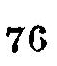76
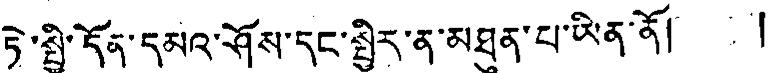ཏེ་སྤྱི་དོན་དམའ་ཤོས་དང་སྤྱིར་ན་མཐུན་པ་ཡིན་ནོ། །
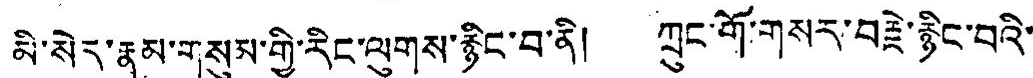མི་སེད་རྣམ་གསུམ་གྱི་རིང་ལུགས་རྙིང་བ་ནི། ཀྲུང་གོ་གསར་བརྗེ་རྙིང་བའི་
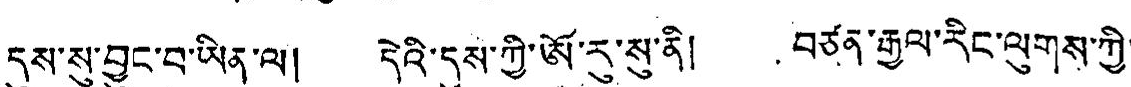དུས་སུ་བྱུང་བ་ཡིན་ལ། དེའི་དུས་ཀྱི་ཨོ་རུ་སུ་ནི། བཙན་རྒྱལ་རིང་ལུགས་ཀྱི་
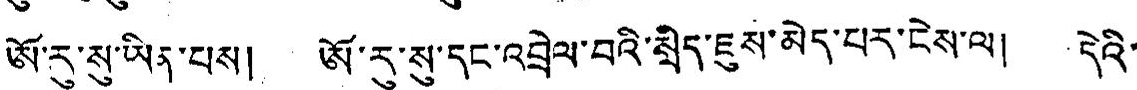ཨོ་རུ་སུ་ཡིན་པས། ཨོ་རུ་སུ་དང་འབྲེལ་བའི་སྲིད་ཇུས་མེད་པར་ངེས་ལ། དེའི་
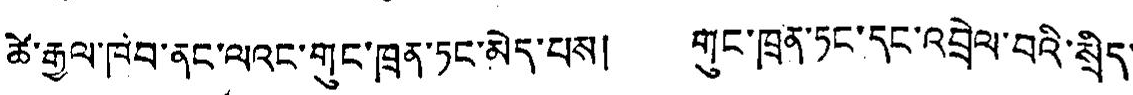ཚེ་རྒྱལ་ཁབ་ནང་ལའང་གུང་ཁྲན་ཏང་མེད་པས། གུང་ཁྲན་ཏང་དང་འབྲེལ་བའི་སྲིད་
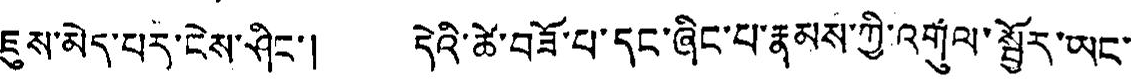ཇུས་མེད་པར་ངེས་ཤིང་། དེའི་ཚེ་བཟོ་པ་དང་ཞིང་པ་རྣམས་ཀྱི་འགུལ་སྦྱོར་ཡང་
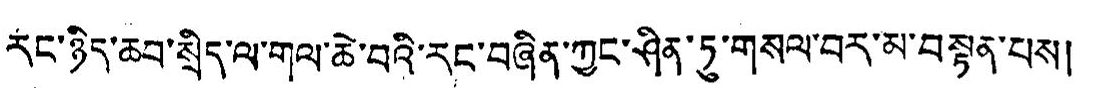རང་ཉིད་ཆབ་སྲིད་ལ་གལ་ཆེ་བའི་རང་བཞིན་ཀྱང་ཤིན་ཏུ་གསལ་བར་མ་བསྟན་པས།
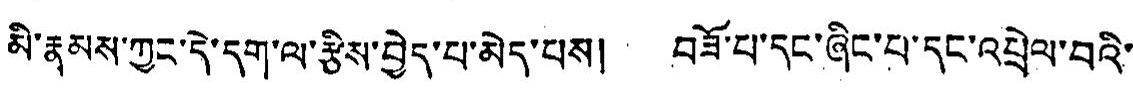མི་རྣམས་ཀྱང་དེ་དག་ལ་རྩིས་བྱེད་པ་མེད་པས། བཟོ་པ་དང་ཞིང་པ་དང་འཕྲེལ་བའི་
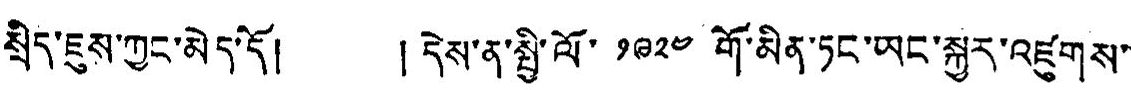སྲིད་ཇུས་ཀྱང་མེད་དོ། །དེས་ན་སྤྱི་ལོ་ ༡༩༢༤ གོ་མིན་ཏང་ཡང་སྐྱུར་འཛུགས་
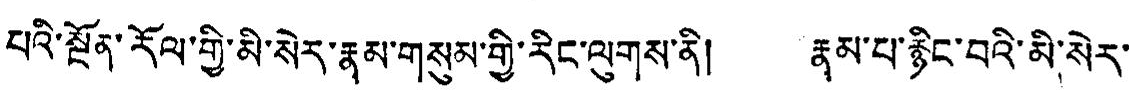པའི་སྔོན་རོལ་གྱི་མི་སེར་རྣམ་གསུམ་གྱི་རིང་ལུགས་ནི། རྣམ་པ་རྙིང་བའི་མི་སེར་
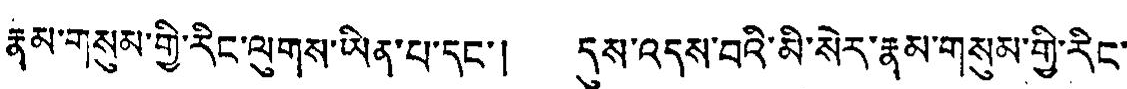རྣམ་གསུམ་གྱི་རིང་ལུགས་ཡིན་པ་དང་། དུས་འདས་བའི་མི་སེར་རྣམ་གསུམ་གྱི་རིང་
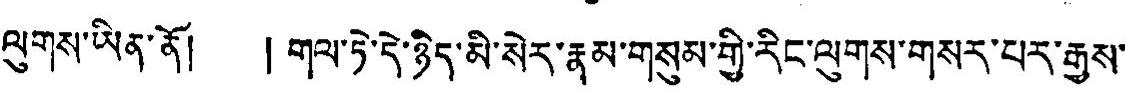ལུགས་ཡིན་ནོ། །གལ་ཏེ་དེ་ཉིད་མི་སེར་རྣམ་གསུམ་གྱི་རིང་ལུགས་གསར་པར་རྒྱས་
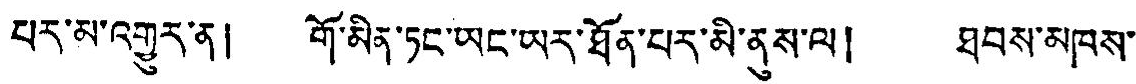པར་མ་འགྱུར་ན། གོ་མིན་ཏང་ཡང་ཡར་ཐོན་པར་མི་ནུས་ལ། ཐབས་མཁས་
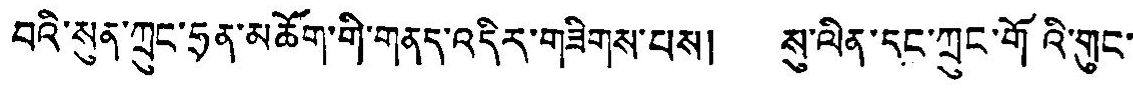བའི་སུན་ཀྲུང་ཧྲན་མཆོག་གི་གནད་འདིར་གཟིགས་པས། སུ་ལིན་དང་ཀྲུང་གོའི་གུང་
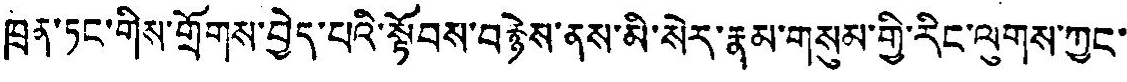ཁྲུན་ཏང་གིས་གྲོགས་བྱེད་པལི་སྟོབས་བརྙེས་ནས་མི་སེར་རྣམ་གསུམ་གྱི་རིང་ལུགས་ཀྱང་
